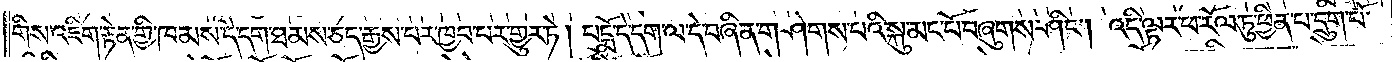གིས་འཇིག་རྟེན་གྱི་ཁམས་དེ་དག་ཐམས་ཅད་རྒྱས་པར་ཁྱབ་པར་གྱུར་ཏེ། པདྨོ་དེ་དག་ལ་དེ་བཞིན་གཤེགས་པའི་སྐུ་མང་པོ་བཞུགས་ཤིང༌། འདི་ལྟར་ཕ་རོལ་ཏུ་ཕྱིན་པ་དྲུག་པོ་
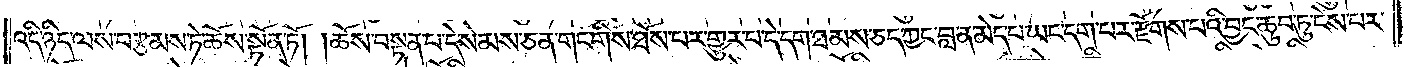འདི་ཉིད་ལས་བརྩམས་ཏེ་ཆོས་སྟོན་ཏོ། །ཆོས་བསྟན་པ་དེ་སེམས་ཅན་གང་གིས་ཐོས་པར་གྱུར་པ་དེ་དག་ཐམས་ཅད་ཀྱང་བླ་ན་མེད་པ་ཡང་དག་པར་རྫོགས་པའི་བྱང་ཆུབ་ཏུ་ངེས་པར་
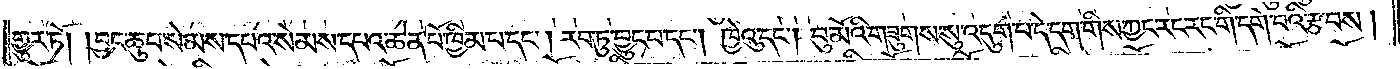གྱུར་ཏོ། །བྱང་ཆུབ་སེམས་དཔའ་སེམས་དཔའ་ཆེན་པོ་ཁྱིམ་པ་དང༌། རབ་ཏུ་བྱུང་བ་དང༌། ཁྱེའུ་དང༌། བུ་མོའི་གཟུགས་སུ་འདུག་པ་དེ་དག་གིས་ཀྱང་རང་རང་གི་དགེ་བའི་རྩ་བས་།
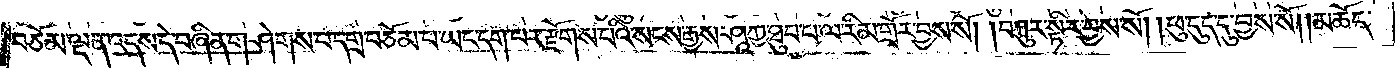བཅོམ་ལྡན་འདས་དེ་བཞིན་གཤེགས་པ་དགྲ་བཅོམ་པ་ཡང་དག་པར་རྫོགས་པའི་སངས་རྒྱས་ཤཱཀྱ་ཐུབ་པ་ལ་རིམ་གྲོར་བྱས་སོ། །བཀུར་སྟིར་བྱས་སོ། །ཕུ་དུད་དུ་བྱས་སོ། །མཆོད་
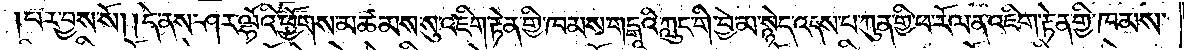པར་བྱས་སོ། །དེ་ནས་ཤར་ལྷོའི་ཕྱོགས་མཚམས་སུ་འཇིག་རྟེན་གྱི་ཁམས་གངྒཱའི་ཀླུང་གི་བྱེ་མ་སྙེད་འདས་པ་ཀུན་གྱི་ཕ་རོལ་ན་འཇིག་རྟེན་གྱི་ཁམས་
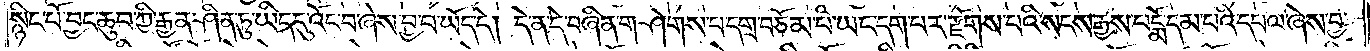སྙིང་པོ་བྱང་ཆུབ་ཀྱི་རྒྱན་ཤིན་ཏུ་ཡིད་དུ་འོང་བ་ཞེས་བྱ་བ་ཡོད་དེ། དེ་ན་དེ་བཞིན་གཤེགས་པ་དགྲ་བཅོམ་པ་ཡང་དག་པར་རྫོགས་པའི་སངས་རྒྱས་པདྨོ་དམ་པའི་དཔལ་ཞེས་བྱ་
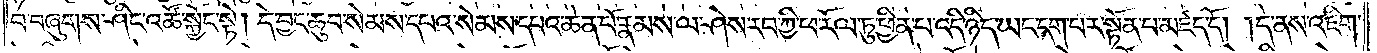བ་བཞུགས་ཤིང་འཚོ་སྐྱོང་སྟེ། དེ་བྱང་ཆུབ་སེམས་དཔའ་སེམས་དཔའ་ཆེན་པོ་རྣམས་ལ་ཤེས་རབ་ཀྱི་ཕ་རོལ་ཏུ་ཕྱིན་པ་འདི་ཉིད་ཡང་དག་པར་སྟོན་བ་མཛད་དོ། །དེ་ནས་འཇིག་
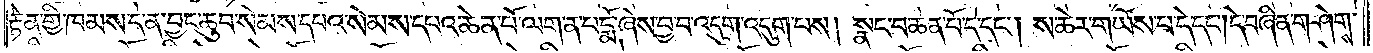རྟེན་གྱི་ཁམས་དེ་ན་བྱང་ཆུབ་སེམས་དཔའ་སེམས་དཔའ་ཆེན་པོ་ལག་ན་པདྨོ་ཞེས་བྱ་བ་འདུག་འདུག་པས། སྣང་བ་ཆེན་པོ་དེ་དང༌། ས་ཆེར་གཡོས་པ་དེ་དང༌། དེ་བཞིན་གཤེགས་
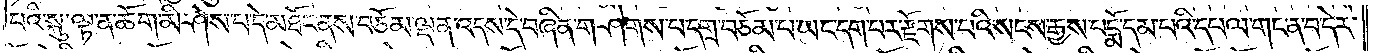པའི་སྐུ་ལྟ་ན་ཆོག་མི་ཤེས་པ་དེ་མཐོང་ནས་བཅོམ་ལྡན་འདས་དེ་བཞིན་གཤེགས་པ་དགྲ་བཅོམ་པ་ཡང་དག་པར་རྫོགས་པའི་སངས་རྒྱས་པདྨོ་དམ་པའི་དཔལ་གང་ན་བ་དེར་
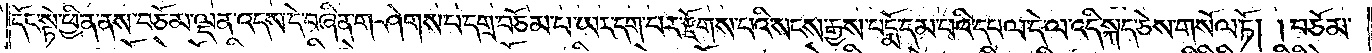དོང་སྟེ་ཕྱིན་ནས་བཅོམ་ལྡན་འདས་དེ་བཞིན་གཤེགས་པ་དགྲ་བཅོམ་པ་ཡང་དག་པར་རྫོགས་པའི་སངས་རྒྱས་པདྨོ་དམ་པའི་དཔལ་དེ་ལ་འདི་སྐད་ཅེས་གསོལ་ཏོ། །བཅོམ་
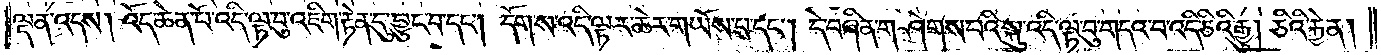ལྡན་འདས། འོད་ཆེན་པོ་འདི་ལྟ་བུ་འཇིག་རྟེན་དུ་བྱུང་བ་དང༌། དོག་ས་འདི་ལྟར་ཆེར་གཡོས་པ་དང༌། དེ་བཞིན་གཤེགས་པའི་སྐུ་འདི་ལྟ་བུ་གདའ་བ་འདི་ཅིའི་རྒྱུ། ཅིའི་རྐྱེན།
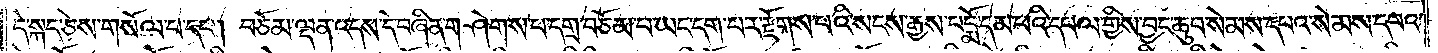དེ་སྐད་ཅེས་གསོལ་པ་དང༌། བཅོམ་ལྡན་འདས་དེ་བཞིན་གཤེགས་པ་དགྲ་བཅོམ་པ་ཡང་དག་པར་རྫོགས་པའི་སངས་རྒྱས་པདྨོ་དམ་པའི་དཔལ་གྱིས་བྱང་ཆུབ་སེམས་དཔའ་སེམས་དཔའ་
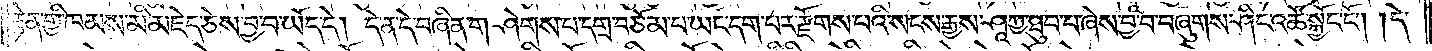རྟེན་གྱི་ཁམས་མི་མཇེད་ཅེས་བྱ་བ་ཡོད་དེ། དེ་ན་དེ་བཞིན་གཤེགས་པ་དགྲ་བཅོམ་པ་ཡང་དག་པར་རྫོགས་པའི་སངས་རྒྱས་ཤཱཀྱ་ཐུབ་པ་ཞེས་བྱ་བ་བཞུགས་ཤིང་འཚོ་སྐྱོང་ངོ༌། །དེ་
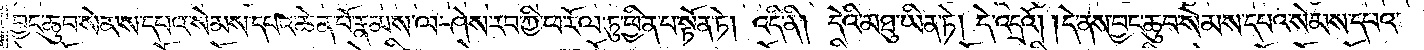བྱང་ཆུབ་སེམས་དཔའ་སེམས་དཔའ་ཆེན་པོ་རྣམས་ལ་ཤེས་རབ་ཀྱི་ཕ་རོལ་ཏུ་ཕྱིན་པ་སྟོན་ཏེ། འདི་ནི། དེའི་མཐུ་ཡིན་ཏེ། དེ་འདྲའོ། །དེ་ནས་བྱང་ཆུབ་སེམས་དཔའ་སེམས་དཔའ་
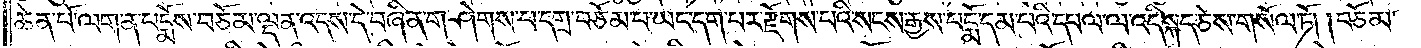ཆེན་པོ་ལག་ན་པདྨོས་བཅོམ་ལྡན་འདས་དེ་བཞིན་གཤེགས་པ་དགྲ་བཅོམ་པ་ཡང་དག་པར་རྫོགས་པའི་སངས་རྒྱས་པདྨོ་དམ་པའི་དཔལ་ལ་འདི་སྐད་ཅེས་གསོལ་ཏོ། །བཅོམ་
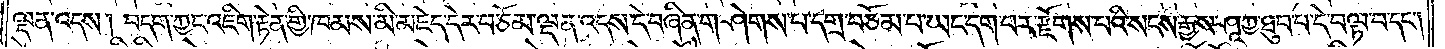ལྡན་འདས། བདག་ཀྱང་འཇིག་རྟེན་གྱི་ཁམས་མི་མཇེད་དེར་བཅོམ་ལྡན་འདས་དེ་བཞིན་གཤེགས་པ་དགྲ་བཅོམ་པ་ཡང་དག་པར་རྫོགས་པའི་སངས་རྒྱས་ཤཱཀྱ་ཐུབ་པ་དེ་བལྟ་བ་དང༌།
